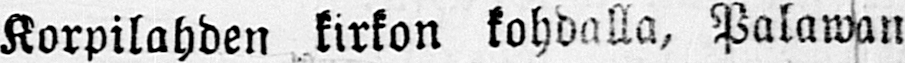Korpilahden kirkon kohdalla. Palawan
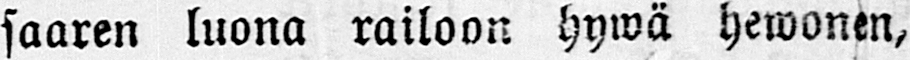saaren luona railoon hywä hewonen,
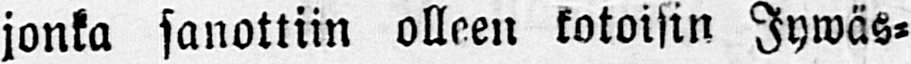jonka sanottiin olleen kotoisin Jywäs-
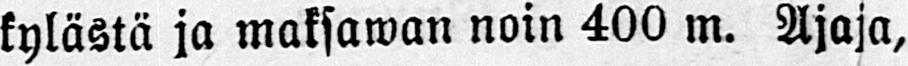kylästä ja maksawan noin 400 m. Ajaja,
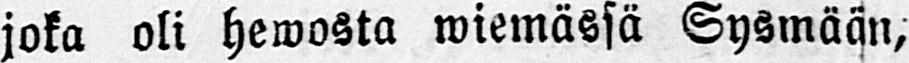joka oli hewosta wiemässä Sysmään,
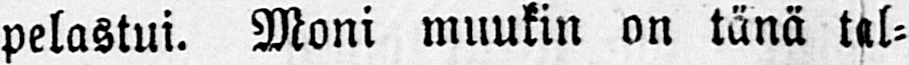pelastui. Moni muukin on tänä tal-
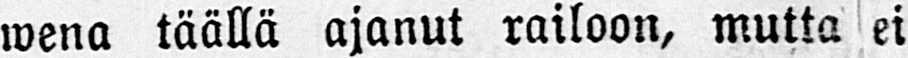wena täällä ajanut railoon, mutta ei
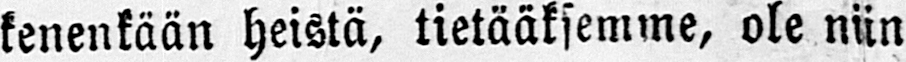kenenkään heistä, tietääksemme, ole niin
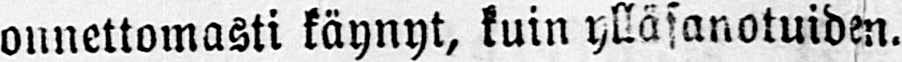onnettomasti käynyt, kuin ylläsanotuiden.
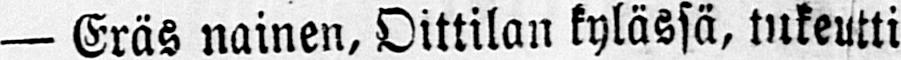— Eräs nainen, Oittilan kylässä, tukeutti
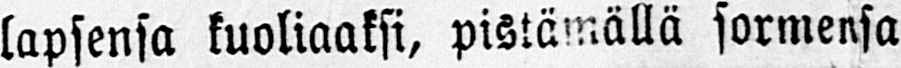lapsensa kuoliaaksi, pistämällä sormensa
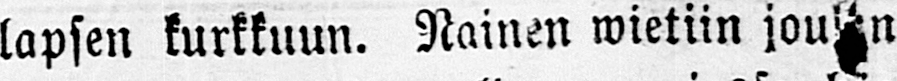lapsen kurkkuun. Nainen wietiin joulun
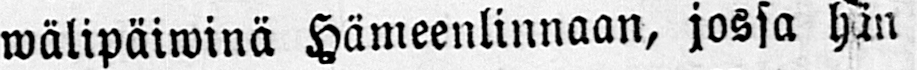wälipäiwinä Hämeenlinnaan, jossa hän
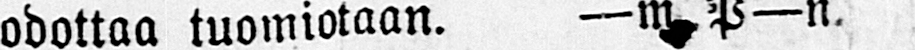odottaa tuomiotaan. -m. P-n.
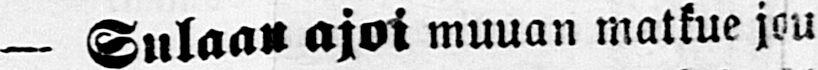— Sulaan ajoi muuan matkue jou-
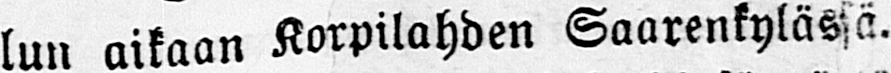lun aikaan Korpilahden Saarenkylässä.
